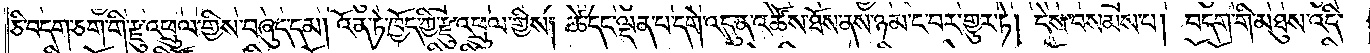ཅི་བདག་ཅག་གི་རྫུ་འཕྲུལ་གྱིས་བཞུད་དམ། འོན་ཏེ་ཁྱོད་ཀྱི་རྫུ་འཕྲུལ་གྱིས། ཚེ་དང་ལྡན་པ་དགེ་འདུན་འཚོས་ཐོས་ནས་ཉམ་ང་བར་གྱུར་ཏེ། དེས་བསམས་པ། བདག་གི་མཐུས་འདི་
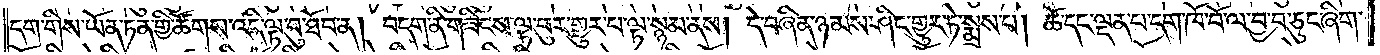དག་གིས་ཡོན་ཏན་གྱི་ཚོགས་འདི་ལྟ་བུ་ཐོབ་ན། བདག་ནི་གཟིངས་ལྟ་བུར་གྱུར་བ་ལྟ་སྙམ་ནས། དེ་བཞིན་ཉམས་ཤིང་གྱུར་ཏེ་སྨྲས་པ། ཚེ་དང་ལྡན་པ་དག་ཁོ་བོ་ལ་བྱ་བ་ཅུང་ཞིག་
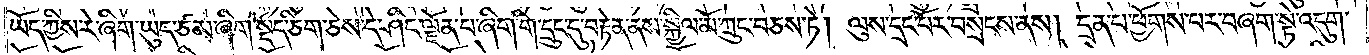ཡོད་ཀྱིས་རེ་ཞིག་ཡུད་ཙམ་ཞིག་སྡོད་ཅིག་ཅེས་དེ་ཤིང་ལྗོན་པ་ཞིག་གི་དྲུང་དུ་བརྟེན་ནས་སྐྱིལ་མོ་ཀྲུང་བཅས་ཏེ། ལུས་དྲང་པོར་བསྲངས་ནས། དྲན་པ་ཕྱོགས་པར་བཞག་སྟེ་འདུག་
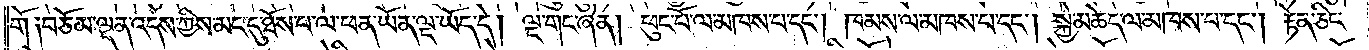གོ ༑ བཅོམ་ལྡན་འདས་ཀྱིས་མང་དུ་ཐོས་པ་ལ་ཕན་ཡོན་ལྔ་ཡོད་དེ། ལྔ་གང་ཞེ་ན། ཕུང་པོ་ལ་མཁས་པ་དང༌། ཁམས་ལ་མཁས་པ་དང༌། སྐྱེ་མཆེད་ལ་མཁས་པ་དང༌། རྟེན་ཅིང་
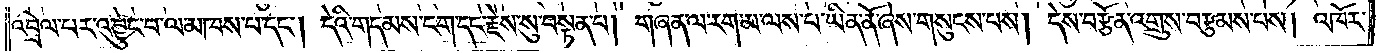འབྲེལ་པར་འབྱུང་བ་ལ་མཁས་པ་དང༌། དེའི་གདམས་ངག་དང་རྗེས་སུ་བསྟན་པ། གཞན་ལ་རག་མ་ལས་པ་ཡིན་ནོ་ཞེས་གསུངས་པས། དེས་བརྩོན་འགྲུས་བརྩམས་པས། འཁོར་
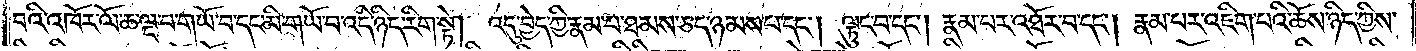བའི་འཁོར་ལོ་ཆ་ལྔ་བ་གཡོ་བ་དང་མི་གཡོ་བ་འདི་ཉིད་རིག་སྟེ། འདུ་བྱེད་ཀྱི་རྣམ་པ་ཐམས་ཅད་ཉམས་པ་དང༌། ལྟུང་བ་དང༌། རྣམ་པར་འཐོར་བ་དང༌། རྣམ་པར་འཇིག་པའི་ཆོས་ཉིད་ཀྱིས་
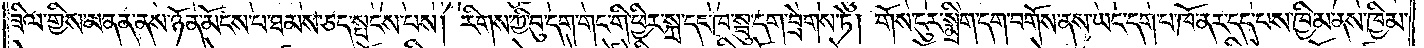ཟིལ་གྱིས་མནན་ནས་ཉོན་མོངས་པ་ཐམས་ཅད་སྤངས་པས། རིགས་ཀྱི་བུ་དག་གང་གི་ཕྱིར་སྐྲ་དང་ཁ་སྦུ་དག་བྲེགས་ཏེ། གོས་དུར་སྨྲིག་དག་བགོས་ནས་ཡང་དག་པ་ཁོ་ནར་དད་པས་ཁྱིམ་ནས་ཁྱིམ་
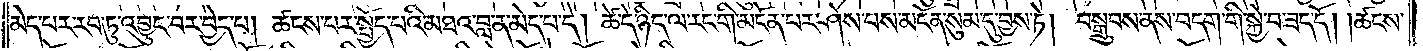མེད་པར་རབ་ཏུ་འབྱུང་བར་བྱེད་པ། ཚངས་པར་སྤྱོད་པའི་མཐའ་བླ་ན་མེད་པ་དེ། ཚེ་དེ་ཉིད་ལ་རང་གི་མངོན་པར་ཤེས་པས་མངོན་སུམ་དུ་བྱས་ཏེ། བསྒྲུབས་ནས་བདག་གི་སྐྱེ་བ་ཟད་དོ། །ཚངས་
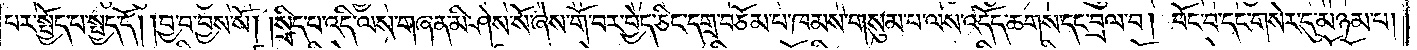པར་སྤྱོད་པ་སྤྱད་དོ། །བྱ་བ་བྱས་སོ། །སྲིད་པ་འདི་ལས་གཞན་མི་ཤེས་སོ་ཞེས་གོ་བར་བྱེད་ཅིང་དགྲ་བཅོམ་པ་ཁམས་གསུམ་པ་ལས་འདོད་ཆགས་དང་བྲལ་བ། བོང་བ་དང་གསེར་དུ་མཉམ་པ།
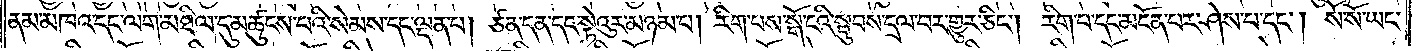ནམ་མཁའ་དང་ལག་མཐིལ་དུ་མཚུངས་པའི་སེམས་དང་ལྡན་པ། ཙན་དན་དང་སྟེའུར་མཉམ་པ། རིག་པས་སྒོ་ངའི་སྦུབས་དྲལ་བར་གྱུར་ཅིང༌། རིག་པ་དང་མངོན་པར་ཤེས་པ་དང༌། སོ་སོ་ཡང་
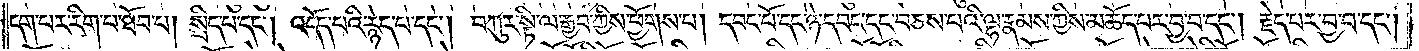དག་པར་རིག་པ་ཐོབ་པ། སྲིད་པ་དང༌། འདོད་པའི་རྙེད་པ་དང༌། བཀུར་སྟི་ལ་རྒྱབ་ཀྱིས་ཕྱོགས་པ། དབང་པོ་དང་ཉེ་དབང་དང་བཅས་པའི་ལྷ་རྣམས་ཀྱིས་མཆོད་པར་བྱ་བ་དང༌། རྗེད་པར་བྱ་བ་དང༌།
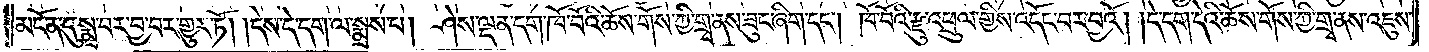མངོན་དུ་སྨྲ་པར་བྱ་བར་གྱུར་ཏོ། །དེས་དེ་དག་ལ་སྨྲས་པ། ཤེས་ལྡན་དག་ཁོ་བོའི་ཆོས་གོས་ཀྱི་གྲྭ་ནས་ཟུང་ཞིག་དང༌། ཁོ་བོའི་རྫུ་འཕྲུལ་གྱིས་འདོང་བར་བྱའོ། །དེ་དག་དེའི་ཆོས་གོས་ཀྱི་གྲྭ་ནས་འཇུས་
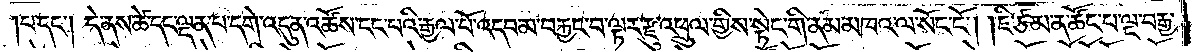པ་དང༌། དེ་ནས་ཚེ་དང་ལྡན་པ་དགེ་འདུན་འཚོས་ངང་པའི་རྒྱལ་པོ་འདབ་མ་བརྐྱང་བ་ལྟར་རྫུ་འཕྲུལ་གྱིས་སྟེང་གི་ནམ་མཁའ་ལ་སོང་ངོ༌། །ཇི་ཙམ་ན་ཚོང་པ་ལྔ་བརྒྱ་
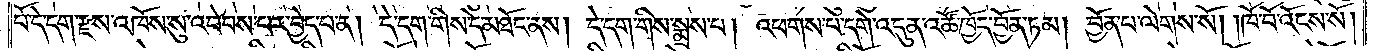པོ་དེ་དག་རྫས་འཁོས་སུ་འབེབས་པར་བྱེད་པ་ན། དེ་དག་གིས་དེ་མཐོང་ནས། དེ་དག་གིས་སྨྲས་པ། འཕགས་པ་དགེ་འདུན་འཚོ་ཁྱོད་བྱོན་ཏམ། བྱོན་པ་ལེགས་སོ། །ཁོ་བོ་འོངས་སོ།
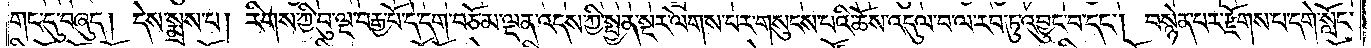གང་དུ་བཞུད། དེས་སྨྲས་པ། རིགས་ཀྱི་བུ་ལྔ་བརྒྱ་པོ་དེ་དག་བཅོམ་ལྡན་འདས་ཀྱི་སྤྱན་སྔར་ལེགས་པར་གསུངས་པའི་ཆོས་འདུལ་བ་ལ་རབ་ཏུ་འབྱུང་བ་དང༌། བསྙེན་པར་རྫོགས་པ་དགེ་སློང་
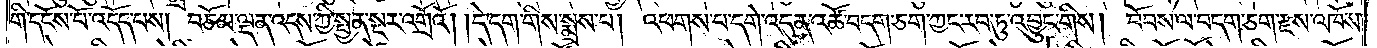གི་དངོས་པོ་འདོད་པས། བཅོམ་ལྡན་འདས་ཀྱི་སྤྱན་སྔར་འགྲོའོ། །དེ་དག་གིས་སྨྲས་པ། འཕགས་པ་དགེ་འདུན་འཚོ་བདག་ཅག་ཀྱང་རབ་ཏུ་འབྱུང་གིས། བོབས་ལ་བདག་ཅག་རྫས་འཁོས་
